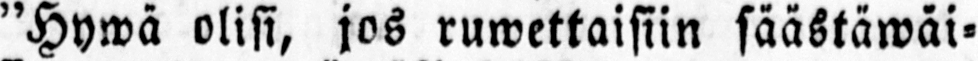"Hywä olisi, jos ruwettaisiin säästäwäi-
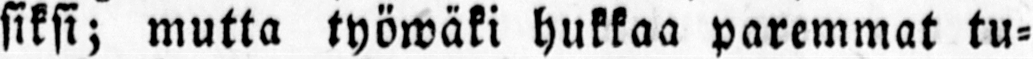siksi; mutta työwäki hukkaa paremmat tu-
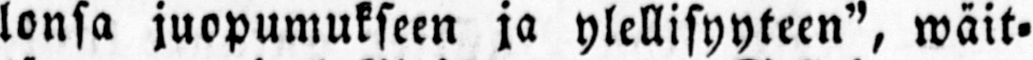lonsa juopumukseen ja ylellisyyteen", wäit-
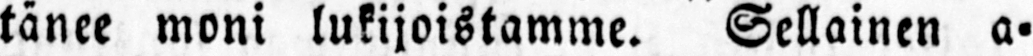tänee moni lukijoistamme. Sellainen a-
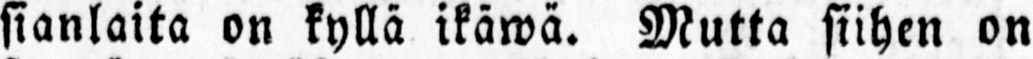sianlaita on kyllä ikäwä. Mutta siihen on
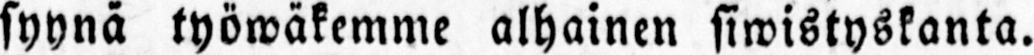syynä työwäkemme alhainen siwistyskanta.
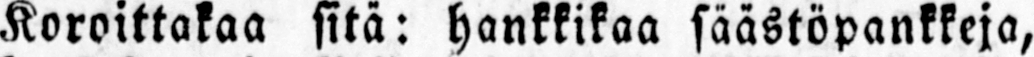Koroittakaa sitä: hankkikaa säästöpankkeja,
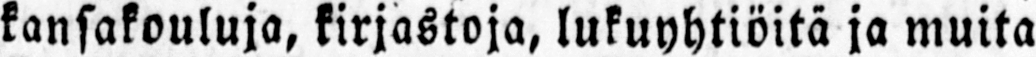kansakouluja, kirjastoja, lukuyhtiöitä ja muita
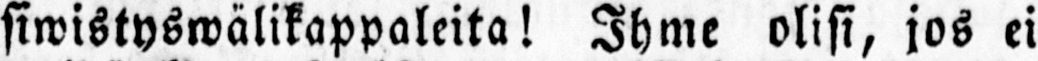siwistyswälikappaleita! Ihme olisi, jos ei
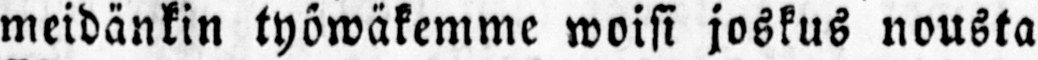meidänkin työwäkemme woisi joskus nousta
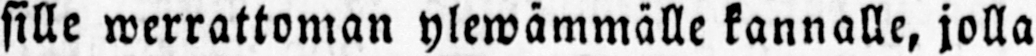sille werrattoman ylewämmälle kannalle, jolla
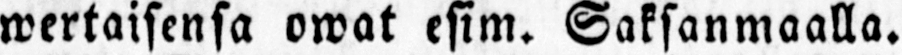wertaisensa owat esim. Saksanmaalla.
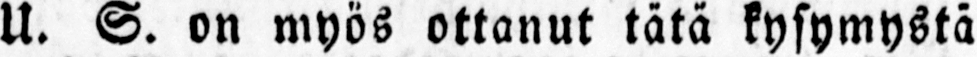U. S. on myös ottanut tätä kysymystä
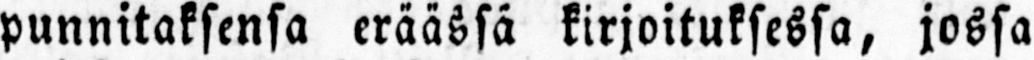punnituksensa eräässä kirjoituksessa, jossa
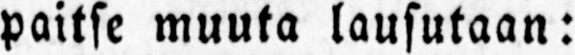paitse muuta lausutaan:
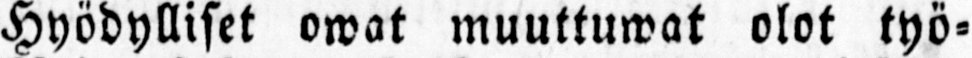Hyödylliset owat muuttuwat olot työ-
